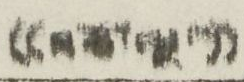(( བཅོ་ལྔ་ ))
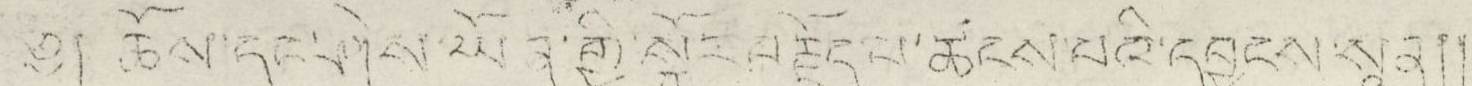༄། ཆོས་དང་ཤེས་ཡོན་གྱི་སྐོར་བརྗོད་པ་ཚངས་པའི་དབྱངས་སྙན།།
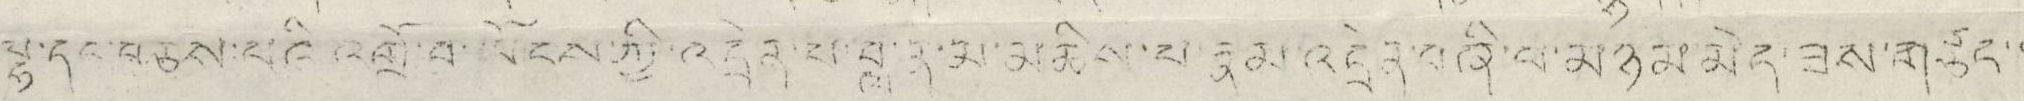ལྷ་དང་བཅས་པའི་འགྲོ་བ་ཡོངས་ཀྱི་འདྲེན་པ་བླ་ན་མ་མཆོས་པ་རྣམ་འདྲེན་བཞི་པ་མཉམ་མེད་ཟས་གཙང་་
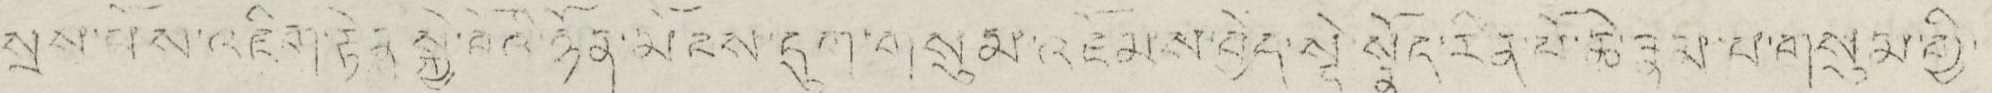སྲས་པོས་འཇིག་རྟེན་སྐྱེ་བོའི་ཉོན་མོངས་དུག་གསུམ་འཛོམས་བྱེད་སྡེ་སྣོད་རིན་པོ་ཆེན་རྣམ་པ་གསུམ་གྱི་
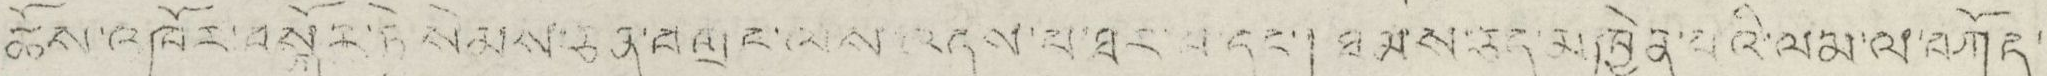ཆོས་འཁོར་བསྐོར་ཏེ་སེམས་ཅན་བགྲང་ལས་འདས་པ་ཐར་པ་དང་། ཐམས་ཅད་འཁྱེན་པའི་ལམ་ལ་བཀོད་
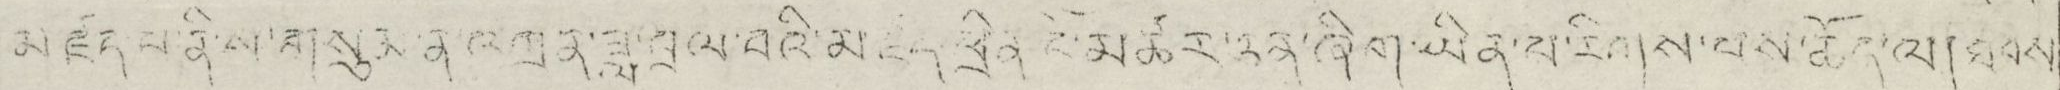མཛད་པ་ནི་ས་གསུམ་ན་འགྲན་ཟླ་བྲལ་བའི་མཛད་ཕྲིན་ངོ་མཚར་ཅན་ཞིག་ཡིན་པ་རིགས་པས་ཆོད་ལ།ཐབས་
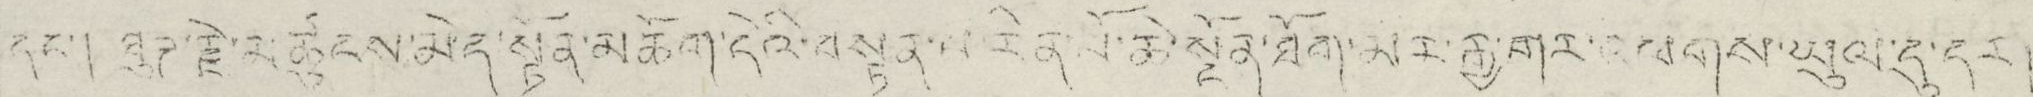དང་། ཐུཊ་རྗེ་མཚུངས་མེད་སྟོན་མཆོག་དེའི་བསྟན་པ་རིན་པོ་ཆེ་སྔོན་ཐོག་མར་རྒྱ་གར་འཕགས་ཡུལ་དུ་དར།
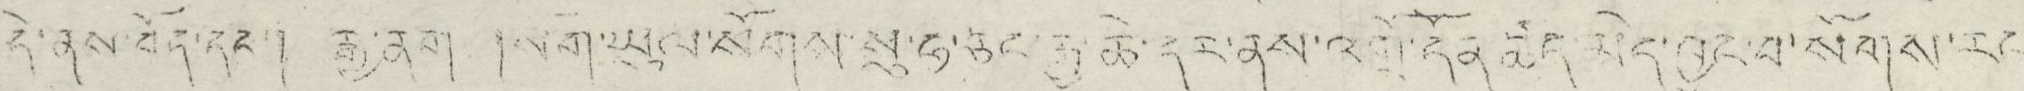དེ་ནས་བོད་དང་། རྒྱ་ནག །སོག་ཡུལ་སོགས་སུ་ཧ་ཅང་རྒྱ་ཆེ་དར་ནས་འགྲོ་དོན་ཚད་མེད་བྱུང་བ་སོགས་རང་
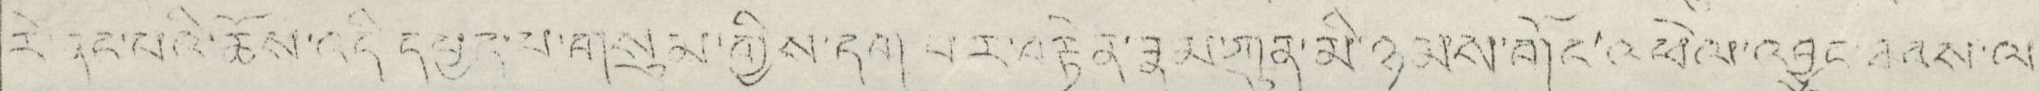རི་ནང་པའི་ཆོས་འདི་དཔྱད་པ་གསུམ་གྱིས་དག་པར་བརྟེན་རྣམ་ཀུན་མི་ཉམས་གོང་འཕེལ་འབྱུང་ཐབས་ལ་
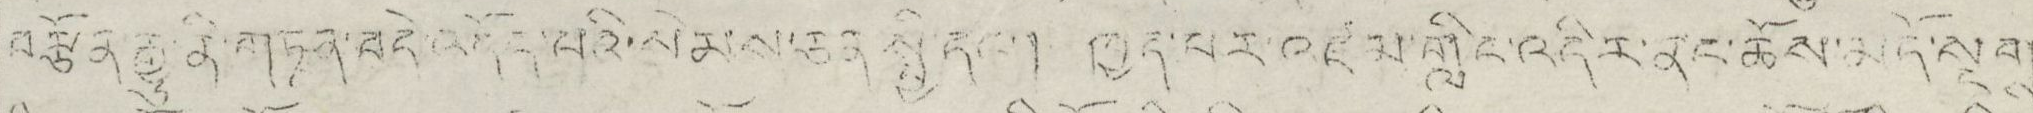བརྩོན་རྒྱུ་ནི་གཏན་བདེ་འདོད་པའི་སེམས་ཅན སྤྱི་དང་། ཁྱད་པར་འཛམ་གླིང་འདིར་ནང་ཆོས་མདོ་སྔགས་
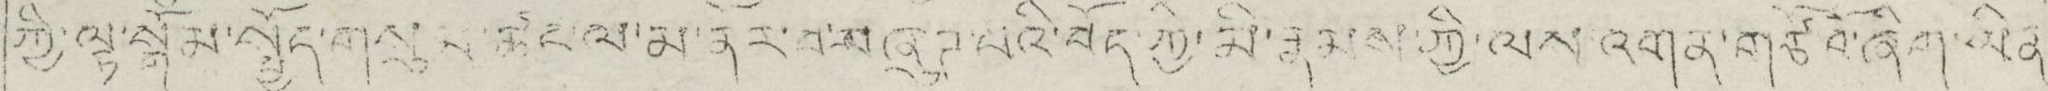ཀྱི་ལྟ་སྒོམ་སྤྱོད་གསུམ་ཚང་ལ་མ་ནོར་བ་བཞུཊ་པའི་བོད་ཀྱི་མི་རྣམས་ཀྱི་ལས་འགན་གཙོ་བོ་ཞིག་ཡིན་
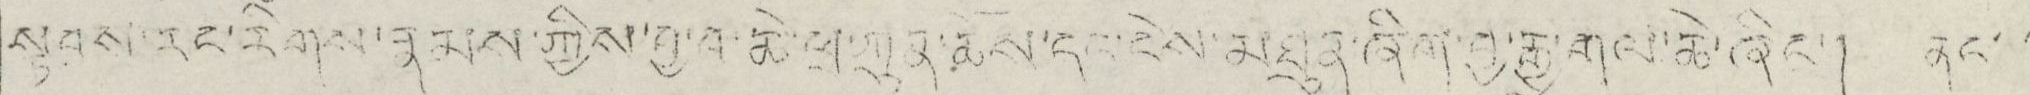སྟབས་རང་རིགས་རྣམས་ཀྱིས་བྱ་བ་ཆེ་ཕྲ་ཀུན་ཆོས་དང་ངེས་མཐུན་ཞིག་བྱ་རྒྱུ་གལ་ཆེ་ཞིང་། ནང་་
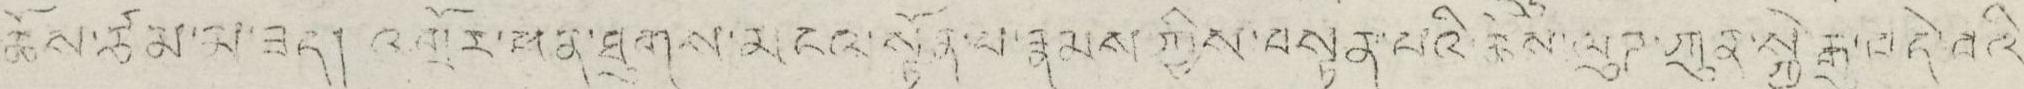ཆོས་ཙམ་མ་ཟད། འགྲོར་ཕན་ཐུགས་མངལ་སྟོན་པ་རྣམས་ཀྱིས་བསྟན་པའི་ཆོས་ལུཊ་ཀུན་སྐྱེ་རྒུ་བདེ་བའི་
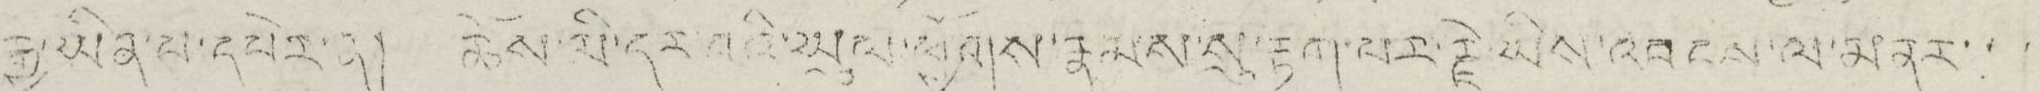རྒྱུ་ཡིན་པ་དཔེར་ན། ཆོས་མི་དར་བའི་ཡུལ་ཕྱོགས་རྣམས་སུ་རྟག་པར་རྗེ་ཡིས་འབངས་ལ་མནར་་་
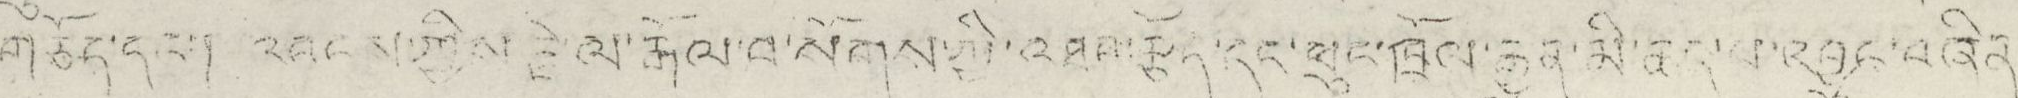གཅོད་དང་། འབངས་ཀྱིས་རྗེ་ལ་རྒོལ་བ་སོགས་ཀྱི་འཐབ་རྩོད་དང་ཕུང་ཁྲོལ་རྒྱུན་མི་ཆད་པ་འབྱུང་བཞིན་
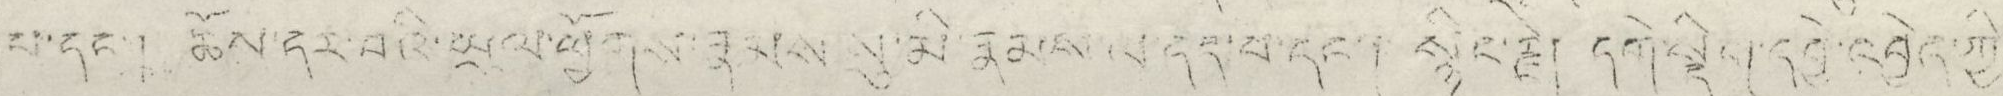པ་དང་། ཆོས་དར་བའི་ཡུལ་ཕྱོགས་རྣམས་སུ་མི་རྣམས་པ་དད་པ་དང་། སྙིང་རྗེ། དགེ་སྡིག་དབྱེ་འབྱེད་ཀྱི
